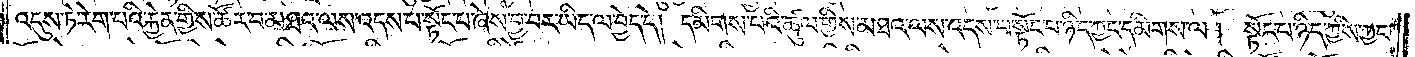འདུས་ཏེ་རེག་པའི་རྐྱེན་གྱིས་ཚོར་བ་མཐའ་ལས་འདས་པ་སྟོང་པ་ཞེས་བྱ་བར་ཡིད་ལ་བྱེད་དེ། དམིགས་པའི་ཚུལ་གྱིས་མཐའ་ལས་འདས་པ་སྟོང་པ་ཉིད་ཀྱང་དམིགས་ལ། སྟོང་པ་ཉིད་ཀྱིས་ཀྱང་
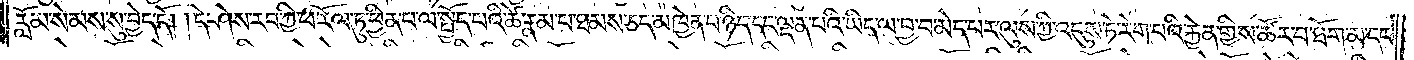རློམ་སེམས་སུ་བྱེད་དོ། །དེ་ཤེས་རབ་ཀྱི་ཕ་རོལ་ཏུ་ཕྱིན་པ་ལ་སྤྱོད་པའི་ཚེ་རྣམ་པ་ཐམས་ཅད་མཁྱེན་པ་ཉིད་དང་ལྡན་པའི་ཡིད་ལ་བྱ་བ་མེད་པར་ལུས་ཀྱི་འདུས་ཏེ་རེག་པའི་རྐྱེན་གྱིས་ཚོར་བ་ཐོག་མ་དང་
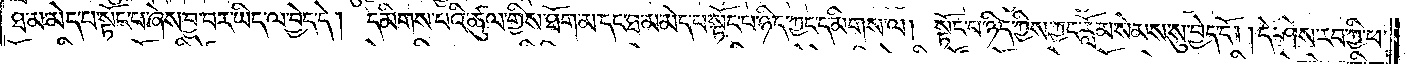ཐ་མ་མེད་པ་སྟོང་པ་ཞེས་བྱ་བར་ཡིད་ལ་བྱེད་དེ། དམིགས་པའི་ཚུལ་གྱིས་ཐོག་མ་དང་ཐ་མ་མེད་པ་སྟོང་པ་ཉིད་ཀྱང་དམིགས་ལ། སྟོང་པ་ཉིད་ཀྱིས་ཀྱང་རློམ་སེམས་སུ་བྱེད་དོ། །དེ་ཤེས་རབ་ཀྱི་ཕ་
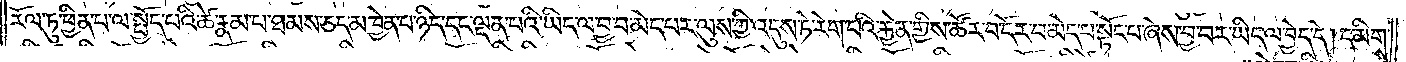རོལ་ཏུ་ཕྱིན་པ་ལ་སྤྱོད་པའི་ཚེ་རྣམ་པ་ཐམས་ཅད་མཁྱེན་པ་ཉིད་དང་ལྡན་པའི་ཡིད་ལ་བྱ་བ་མེད་པར་ལུས་ཀྱི་འདུས་ཏེ་རེག་པའི་རྐྱེན་གྱིས་ཚོར་བ་དོར་བ་མེད་པ་སྟོང་པ་ཞེས་བྱ་བར་ཡིད་ལ་བྱེད་དེ། དམིགས་
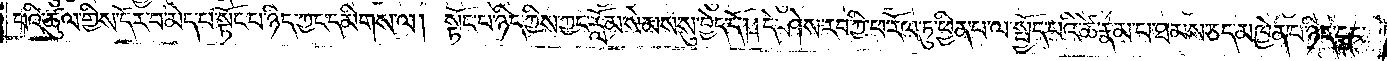པའི་ཚུལ་གྱིས་དོར་བ་མེད་པ་སྟོང་པ་ཉིད་ཀྱང་དམིགས་ལ། སྟོང་པ་ཉིད་ཀྱིས་ཀྱང་རློམ་སེམས་སུ་བྱེད་དོ། །དེ་ཤེས་རབ་ཀྱི་ཕ་རོལ་ཏུ་ཕྱིན་པ་ལ་སྤྱོད་པའི་ཚེ་རྣམ་པ་ཐམས་ཅད་མཁྱེན་པ་ཉིད་དང་
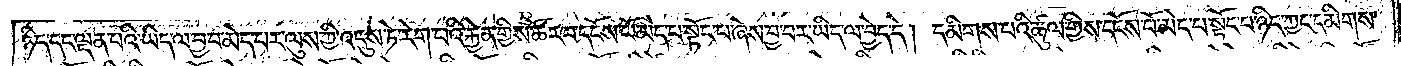ཉིད་དང་ལྡན་པའི་ཡིད་ལ་བྱ་བ་མེད་པར་ལུས་ཀྱི་འདུས་ཏེ་རེག་པའི་རྐྱེན་གྱིས་ཚོར་བ་དངོས་པོ་མེད་པ་སྟོང་པ་ཞེས་བྱ་བར་ཡིད་ལ་བྱེད་དེ། དམིགས་པའི་ཚུལ་གྱིས་དངོས་པོ་མེད་པ་སྟོང་པ་ཉིད་ཀྱང་དམིགས་
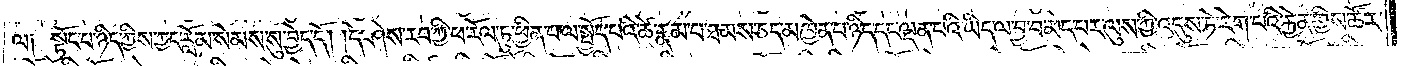ལ༑ སྟོང་པ་ཉིད་ཀྱིས་ཀྱང་རློམ་སེམས་སུ་བྱེད་དོ། །དེ་ཤེས་རབ་ཀྱི་ཕ་རོལ་ཏུ་ཕྱིན་པ་ལ་སྤྱོད་པའི་ཚེ་རྣམ་པ་ཐམས་ཅད་མཁྱེན་པ་ཉིད་དང་ལྡན་པའི་ཡིད་ལ་བྱ་བ་མེད་པར་ལུས་ཀྱི་འདུས་ཏེ་རེག་པའི་རྐྱེན་གྱིས་ཚོར་
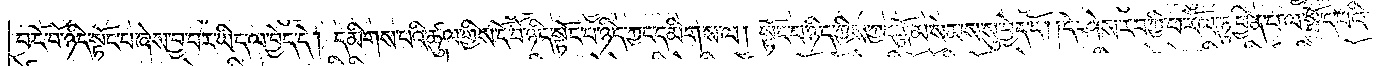བ་ངོ་བོ་ཉིད་སྟོང་པ་ཞེས་བྱ་བར་ཡིད་ལ་བྱེད་དེ། དམིགས་པའི་ཚུལ་གྱིས་ངོ་བོ་ཉིད་སྟོང་པ་ཉིད་ཀྱང་དམིགས་ལ། སྟོང་པ་ཉིད་ཀྱིས་ཀྱང་རློམ་སེམས་སུ་བྱེད་དོ། །དེ་ཤེས་རབ་ཀྱི་ཕ་རོལ་ཏུ་ཕྱིན་པ་ལ་སྤྱོད་པའི་
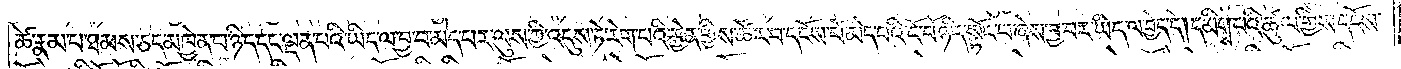ཚེ་རྣམ་པ་ཐམས་ཅད་མཁྱེན་པ་ཉིད་དང་ལྡན་པའི་ཡིད་ལ་བྱ་བ་མེད་པར་ལུས་ཀྱི་འདུས་ཏེ་རེག་པའི་རྐྱེན་གྱིས་ཚོར་བ་དངོས་པོ་མེད་པའི་ངོ་བོ་ཉིད་སྟོང་པ་ཞེས་བྱ་བར་ཡིད་ལ་བྱེད་དེ། དམིགས་པའི་ཚུལ་གྱིས་དངོས་
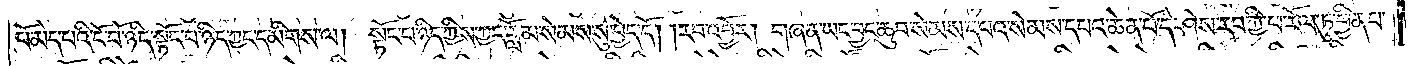པོ་མེད་པའི་ངོ་བོ་ཉིད་སྟོང་པ་ཉིད་ཀྱང་དམིགས་ལ། སྟོང་པ་ཉིད་ཀྱིས་ཀྱང་རློམ་སེམས་སུ་བྱེད་དོ། །རབ་འབྱོར། གཞན་ཡང་བྱང་ཆུབ་སེམས་དཔའ་སེམས་དཔའ་ཆེན་པོ་དེ་ཤེས་རབ་ཀྱི་ཕ་རོལ་ཏུ་ཕྱིན་པ་
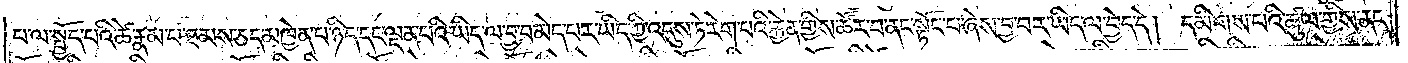པ་ལ་སྤྱོད་པའི་ཚེ་རྣམ་པ་ཐམས་ཅད་མཁྱེན་པ་ཉིད་དང་ལྡན་པའི་ཡིད་ལ་བྱ་བ་མེད་པར་ཡིད་ཀྱི་འདུས་ཏེ་རེག་པའི་རྐྱེན་གྱིས་ཚོར་བ་ནང་སྟོང་པ་ཞེས་བྱ་བར་ཡིད་ལ་བྱེད་དེ། དམིགས་པའི་ཚུལ་གྱིས་ནང་
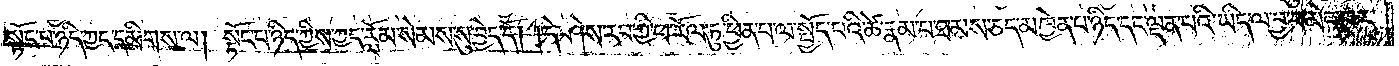སྟོང་པ་ཉིད་ཀྱང་དམིགས་ལ། སྟོང་པ་ཉིད་ཀྱིས་ཀྱང་རློམ་སེམས་སུ་བྱེད་དོ། །དེ་ཤེས་རབ་ཀྱི་ཕ་རོལ་ཏུ་ཕྱིན་པ་ལ་སྤྱོད་པའི་ཚེ་རྣམ་པ་ཐམས་ཅད་མཁྱེན་པ་ཉིད་དང་ལྡན་པའི་ཡིད་ལ་བྱ་བ་མེད་པར་
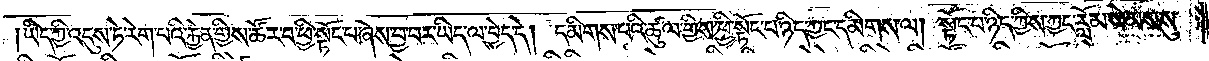ཡིད་ཀྱི་འདུས་ཏེ་རེག་པའི་རྐྱེན་གྱིས་ཚོར་བ་ཕྱི་སྟོང་པ་ཞེས་བྱ་བར་ཡིད་ལ་བྱེད་དེ། དམིགས་པའི་ཚུལ་གྱིས་ཕྱི་སྟོང་པ་ཉིད་ཀྱང་དམིགས་ལ། སྟོང་པ་ཉིད་ཀྱིས་ཀྱང་རློམ་སེམས་སུ་
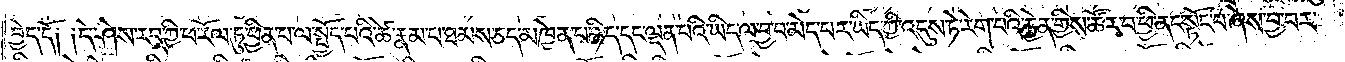བྱེད་དོ༑ ༑དེ་ཤེས་རབ་ཀྱི་ཕ་རོལ་ཏུ་ཕྱིན་པ་ལ་སྤྱོད་པའི་ཚེ་རྣམ་པ་ཐམས་ཅད་མཁྱེན་པ་ཉིད་དང་ལྡན་པའི་ཡིད་ལ་བྱ་བ་མེད་པར་ཡིད་ཀྱི་འདུས་ཏེ་རེག་པའི་རྐྱེན་གྱིས་ཚོར་བ་ཕྱི་ནང་སྟོང་པ་ཞེས་བྱ་བར་
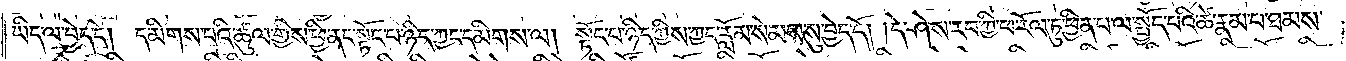ཡིད་ལ་བྱེད་དེ། དམིགས་པའི་ཚུལ་གྱིས་ཕྱི་ནང་སྟོང་པ་ཉིད་ཀྱང་དམིགས་ལ། སྟོང་པ་ཉིད་ཀྱིས་ཀྱང་རློམ་སེམས་སུ་བྱེད་དོ། །དེ་ཤེས་རབ་ཀྱི་ཕ་རོལ་ཏུ་ཕྱིན་པ་ལ་སྤྱོད་པའི་ཚེ་རྣམ་པ་ཐམས་
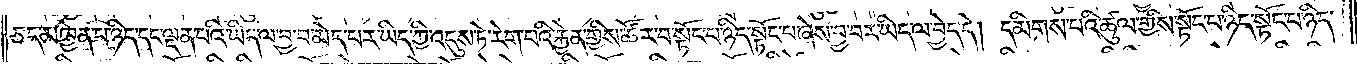ཅད་མཁྱེན་པ་ཉིད་དང་ལྡན་པའི་ཡིད་ལ་བྱ་བ་མེད་པར་ཡིད་ཀྱི་འདུས་ཏེ་རེག་པའི་རྐྱེན་གྱིས་ཚོར་བ་སྟོང་པ་ཉིད་སྟོང་པ་ཞེས་བྱ་བར་ཡིད་ལ་བྱེད་དེ། དམིགས་པའི་ཚུལ་གྱིས་སྟོང་པ་ཉིད་སྟོང་པ་ཉིད་
